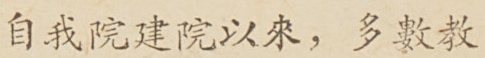自我院建院以來，多數教
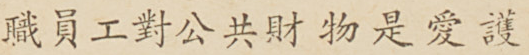職員工對公共財物是愛護
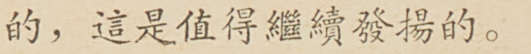的，這是值得繼續發揚的。
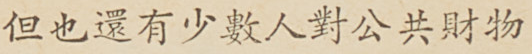但也還有少數人對公共財物
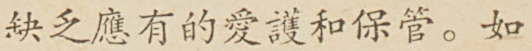缺乏應有的愛護和保管。如
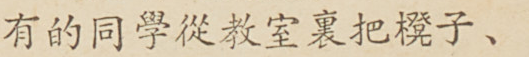有的同學從教室裏把櫈子、
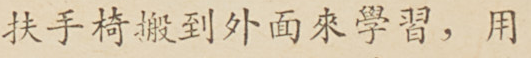扶手椅搬到外面來學習，用
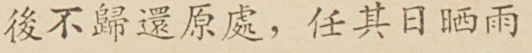後不歸還原處，任其日晒雨
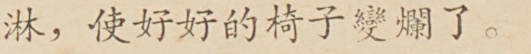淋，使好好的椅子變爛了。
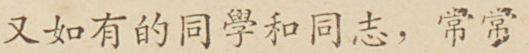又如有的同學和同志，常常
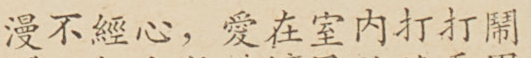漫不經心，愛在室內打打鬧
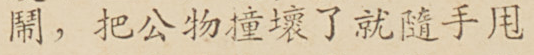鬧，把公物撞壞了就隨手甩
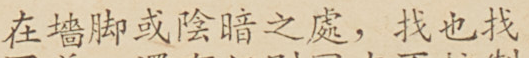在牆角或陰暗之處，找也找
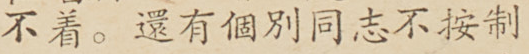不着。還有個別同志不按制
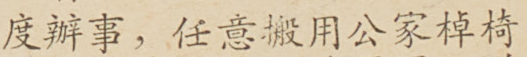度辦事，任意搬用公家棹椅
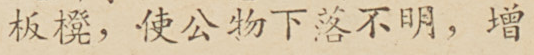板櫈，使公物下落不明，增
